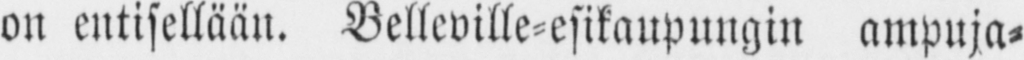on entisellään. Belleville-esikaupungin ampuja-
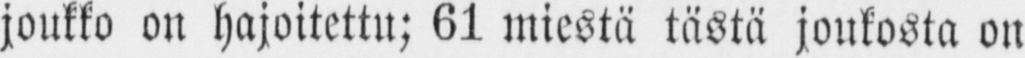joukko on hajoitettu; 61 miestä tästä joukosta on
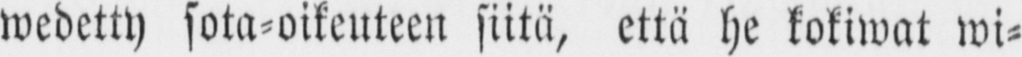wedetty sota-oikeuteen siitä, että he kokiwat wi-
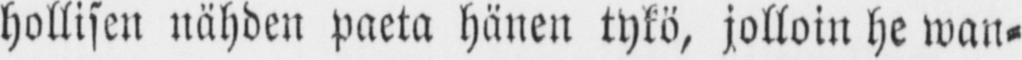hollisen nähden paeta hänen tykö, jolloin he wan-
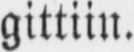gittiin.
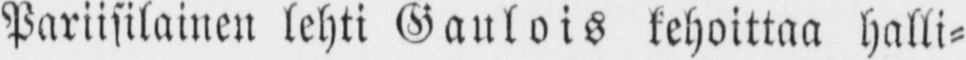Pariisilainen lehti Gaulois kehoittaa halli-
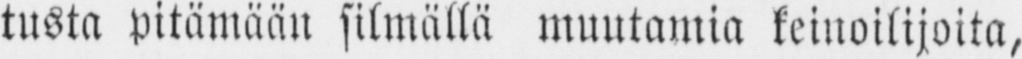tusta pitämään silmällä muutamia keinoilijoita,
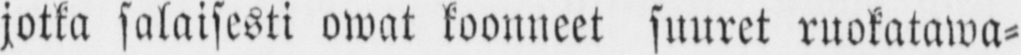jotta salaisesti owat koonneet suuret ruokatawa-
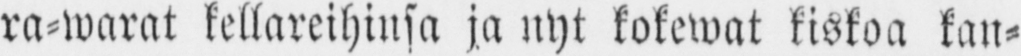ra-warat kellareihinsa ja nyt kokewat kiskoa kan-
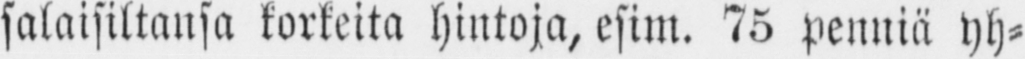salaisiltansa korkeita hintoja, esim. 75 penniä yh-
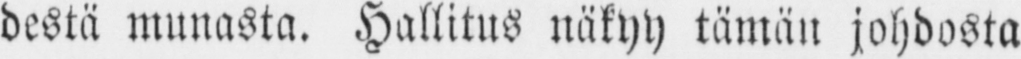destä munasta. Hallitus näkyy tämän johdosta
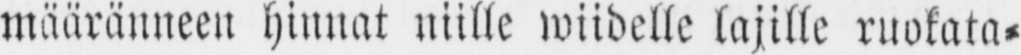määränneen hinnat niille wiidelle lajille ruokata-
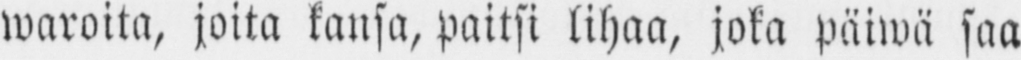waroita, joita kansa, paitsi lihaa, joka päiwä saa
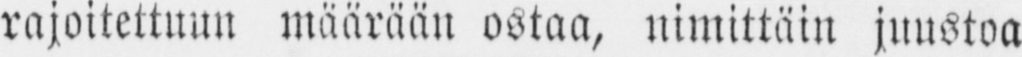rajoitettuun määrään ostaa, nimittäin juustoa
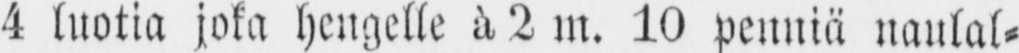4 luotia joka hengelle ä 2 m. 10 penniä naulal-
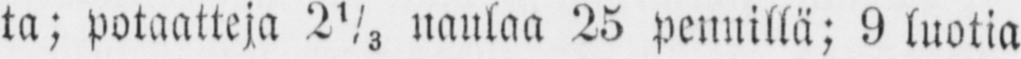ta; potaatteja 2⅓ naulaa 25 pennillä; 9 luotia
